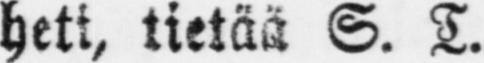heti, tietää S. T.
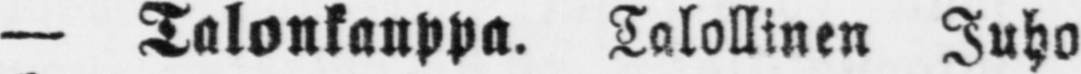— Talonkauppa. Talollinen Juho
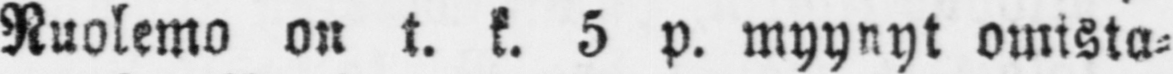Nuolema on t. k. 5 p. myynyt omista-
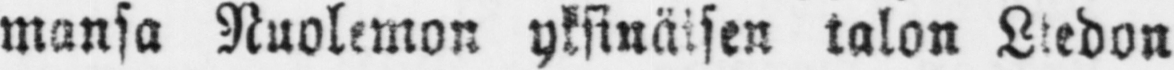mansa Nuolemon yksinäisen talon Liedon
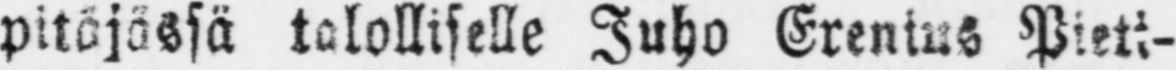pitäjässä talolliselle Juho Elenius Pieti-
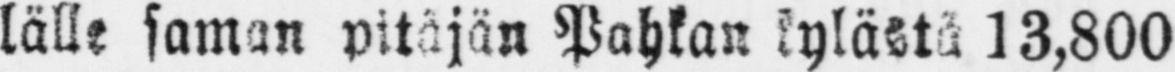lälle saman pitäjän Pahkan kylästä 13,800
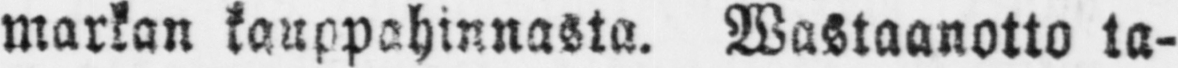markan kauppahinnasta. Wastaanotto ta-
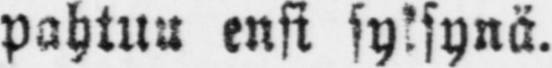pahtuu ensi syksynä.
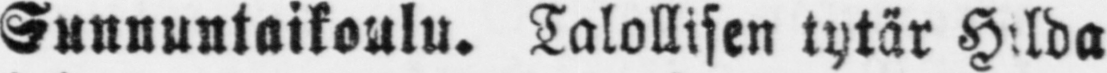Sunnuntaikoulu. Talollisen tytär Hilda
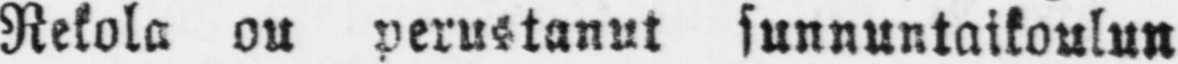Rekola ou perustanut sunnuntaikoulun
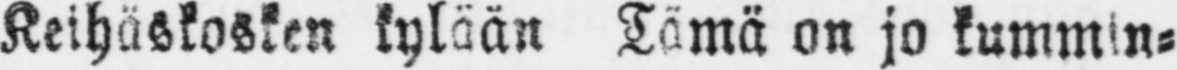Keihäskosken kylään Tämä on jo kummin-
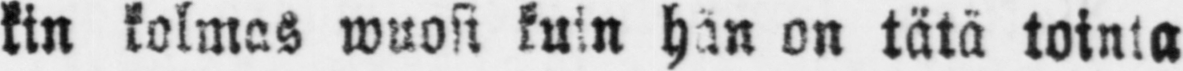kin kolmas wuosi kuin hän on tätä tointa
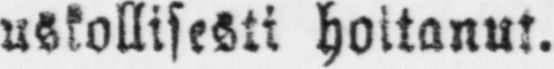uskollisesti hoitanut.
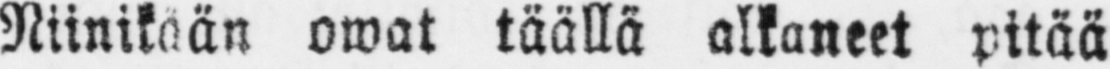Niinikään owat täällä alkaneet pitää
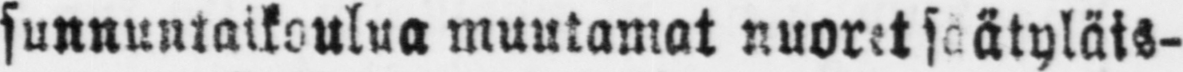sunnuntaikoulua muutamat nuoret säätyläis-
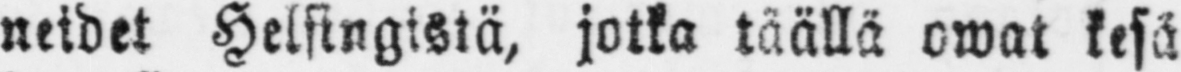neidet Helsingistä, jotka täällä owat kesä
